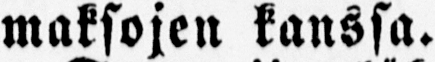maksojen kanssa.
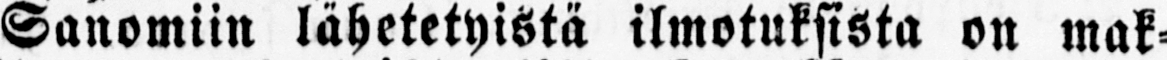Sanomiin lähetetyistä ilmotuksista on mak-
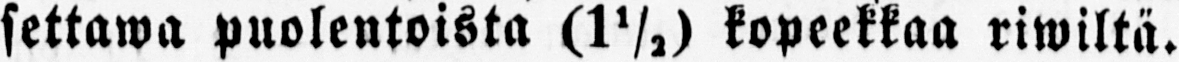settawa puolentoista (1½) kopeekkaa riwiltä.
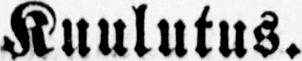Kuulutus.
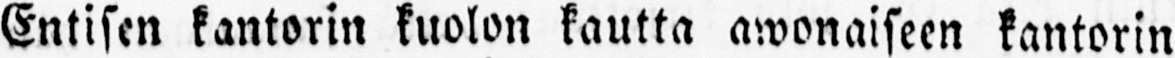Entisen kantorin kuolon kautta awonaiseen kantorin
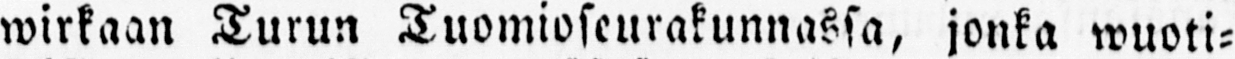wirkaan Turun Tuomioseurakunnassa, jonka wuoti-
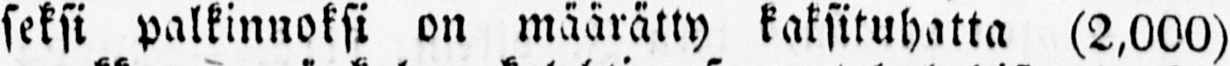seksi palkinnoksi on määrätty kaksituhatta (2,000)
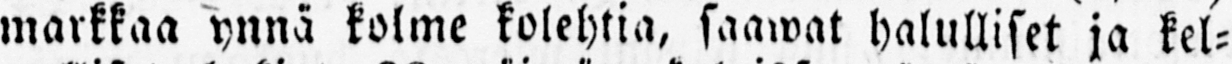markkaa ynnä kolme kolehtia, saawat halulliset ja kel-
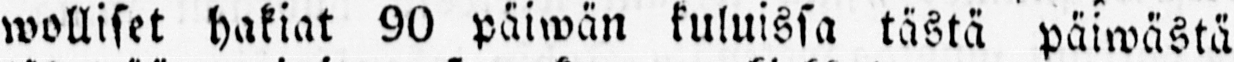wolliset hakiat 90 päiwän kuluissa tästä päiwästä
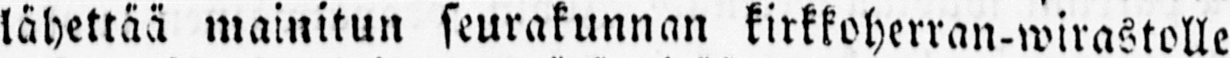lähettää mainitun seurakunnan kirkkoherran-wirastolle
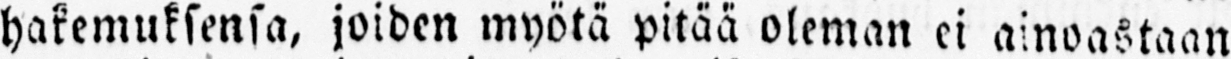hakemuksensa, joiden myötä pitää oleman ei ainoastaan
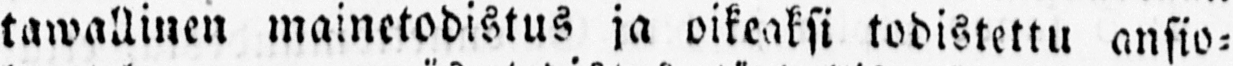tawallinen mainetodistus ja oikeaksi todistettu ansio-
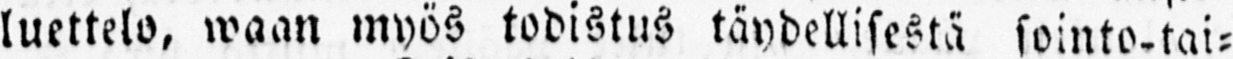luettelo, waan myös todistus täydellisestä sointo-tai-
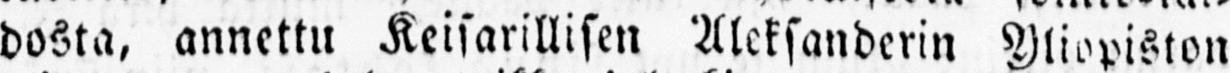dosta, annettu Keisarillisen Aleksanderin Yliopiston
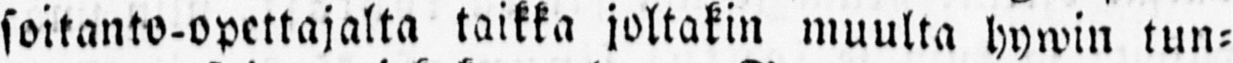soitanto-opettajalta taikka joltakin muulta hywin tun-
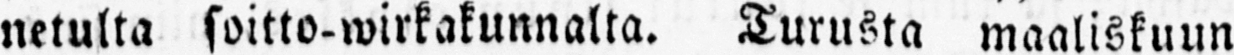netulta soitto-wirkakunnalta. Turusta maaliskuun
